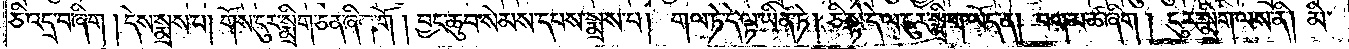ཅི་འདྲ་བ་ཞིག །དེས་སྨྲས་པ། གོས་ངུར་སྨྲིག་ཅན་ཞིག་གོ །བྱང་ཆུབ་སེམས་དཔས་སྨྲས་པ། གལ་ཏེ་དེ་ལྟ་ཡིན་ཏེ། ཅི་སྟེ་དེ་ལ་ངུར་སྨྲིག་ཡོད་ན། བག་མ་ཚ་ཞིག །ངུར་སྨྲིག་ལས་ནི། མི་
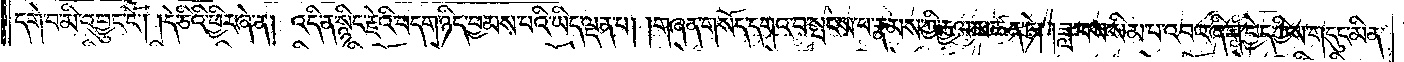དགེ་བ་མི་འབྱུང་ངོ༌། །དེ་ཅིའི་ཕྱིར་ཞེ་ན། འདི་ན་སྙིང་རྗེའི་བདག་ཉིད་བྱམས་པའི་ཡིད་ལྡན་པ། །གཞན་གསོད་དགའ་བ་སྤངས་པ་རྣམས་ཀྱི་རྒྱལ་མཚན་ཏེ། །ཟླ་བས་སིམ་པ་འབའ་ཞིག་བྱེད་ཀྱིས་གདུང་མིན་
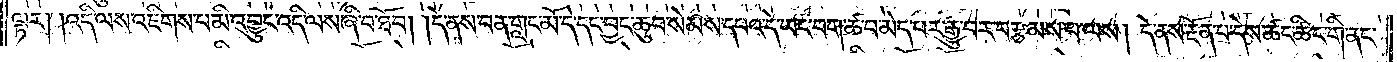ལྟར། །འདི་ལས་འཇིགས་པ་མི་འབྱུང་འདི་ལས་ཞི་བ་ཐོབ། །དེ་ནས་བན་གླང་མོ་དེ་དང་བྱང་ཆུབ་སེམས་དཔའ་དེ་ཡང་བག་ཚ་བ་མེད་པར་རྒྱུ་བར་བརྩམས་པ་ལས། དེ་ནས་རྔོན་པ་དེས་ཚང་ཚིང་གི་ནང་
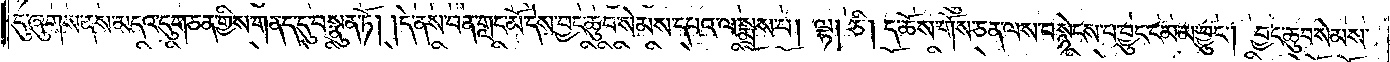དུ་ཞུགས་ནས་མདའ་དུག་ཅན་གྱིས་གནད་དུ་བསྣུན་ཏོ། །དེ་ནས་བན་གླང་མོ་དེས་བྱང་ཆུབ་སེམས་དཔའ་ལ་སྨྲས་པ། ལྷ། ཅི། ད་ཆོས་གོས་ཅན་ལས་བསྙེངས་པ་བྱུང་ངམ་མ་བྱུང༌། བྱང་ཆུབ་སེམས་
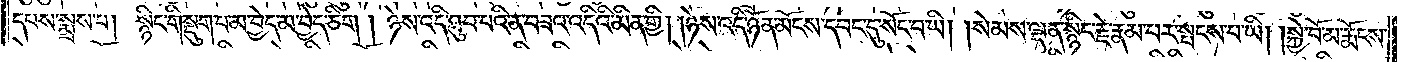དཔས་སྨྲས་པ། སྙིང་གི་སྡུག་པ་མ་བྱེད་མ་བྱེད་ཅིག། ཉེས་འདི་ཐུབ་པའི་ན་བཟའ་འདིའི་མིན་གྱི། །ཉེས་འདི་ཉོན་མོངས་དབང་དུ་སོང་བ་ཡི། །སེམས་ལྡན་སྙིང་རྗེ་རྣམ་པར་སྤངས་པ་ཡི། །སྐྱེ་བོ་མ་རྨོངས་
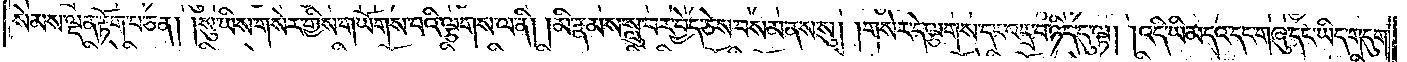སེམས་ལྡན་རྟོག་པ་ཅན། །སུ་ཡིས་གསེར་གྱིས་གཡོགས་པའི་ལྕགས་ལ་ནི། །མི་རྣམས་སླུ་བར་བྱེད་ཅེས་བསམ་ནས་སུ། །གསེར་དེ་ལྕགས་དང་འདྲ་བ་ཉིད་དུ་ལྟ། །འདི་ཡི་མདའ་དང་གཞུ་དང་ཡིད་གདུག་
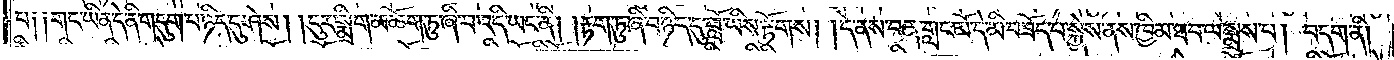པ། །གང་ཡིན་དེ་ནི་གདུག་པ་ཉིད་དུ་ཤེས། །ངུར་སྨྲིག་མཆོག་ཏུ་ཞི་བ་འདི་ཡང་ནི། །རྟག་ཏུ་ཞི་བ་ཉིད་དུ་བློ་ཡིས་རྟོགས། །དེ་ནས་བན་གླང་མོ་དེ་མི་བཟོད་པ་སྐྱེས་ནས་ཁྱིམ་ཐབ་ལ་སྨྲས་པ། བདག་ནི།
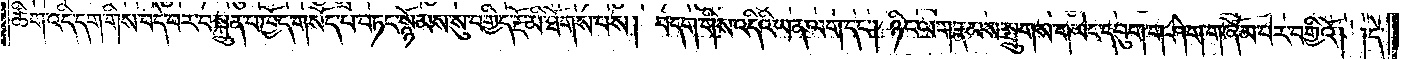ཚིག་འདི་དག་གིས་བདེ་བར་བསྐྲུན་པ་ཁྱོད་གསོད་པ་བཏང་སྙོམས་སུ་བགྱིད་རྔོ་མི་ཐོགས་པས། བདག་གིས་འདིའི་ཡན་ལག་དང༌། ཉིང་ལག་རྣམས་སྤྲུགས་གཡེང་དབུག་གཤེག་གཞོམ་པར་བགྱིའོ། །དེ་
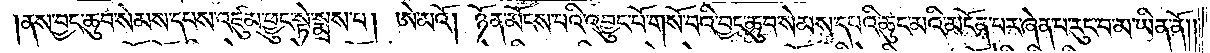ནས་བྱང་ཆུབ་སེམས་དཔས་འཛུམ་ཕྱུང་སྟེ་སྨྲས་པ། ཨེ་མའོ། ཉོན་མོངས་པའི་འབྱུང་པོ་གསོ་བའི་བྱང་ཆུབ་སེམས་དཔའི་ཆུང་མའི་མངོན་པར་ཞེན་པ་རུང་བ་མ་ཡིན་ནོ༎
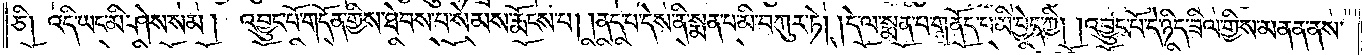ཅི། འདི་ཡང་མི་ཤེས་སམ། འབྱུང་པོ་གདོན་གྱིས་ཐེབས་པ་སེམས་རྨོངས་པ། །ནད་པ་དེས་ནི་སྨན་པ་མི་བཀུར་ཏེ། །དེ་ལ་སྨན་པ་གནོད་པ་མི་བྱེད་ཀྱི། །འབྱུང་པོ་དེ་ཉིད་ཟིལ་གྱིས་མནན་ནས་
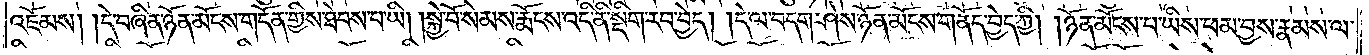འཇོམས། །དེ་བཞིན་ཉོན་མོངས་གདོན་གྱིས་ཐེབས་པ་ཡི། །སྐྱེ་བོ་སེམས་རྨོངས་འདི་ནི་སྡིག་རབ་བྱེད། །དེ་ལ་བདག་ཤེས་ཉོན་མོངས་གནོད་བྱེད་ཀྱི། །ཉོན་མོངས་པ་ཡིས་ཕམ་བྱས་རྣམས་ལ་
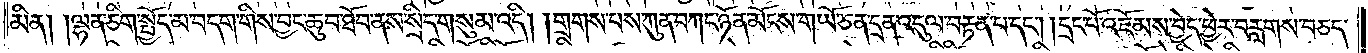མིན། །ལྷན་ཅིག་སྤྱོད་མ་བདག་གིས་བྱང་ཆུབ་ཐོབ་ནས་སྲིད་གསུམ་འདི། །གྲགས་པས་ཀུན་བཀང་ཉོན་མོངས་གཡོ་ཅན་དྲན་འདུལ་བརྟན་པ་དང༌། །དྲང་པོ་འཇོམས་བྱེད་ཁྱེར་བརླགས་བཅད་
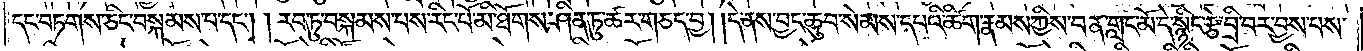དང་བཏགས་ཅིང་བསྐམས་པ་དང༌། །རབ་ཏུ་བསྐམས་པས་རིང་པོ་མི་ཐོགས་ཤིན་ཏུ་ཚར་གཅད་བྱ། །དེ་ནས་བྱང་ཆུབ་སེམས་དཔའི་ཚིག་རྣམས་ཀྱིས་བ་ན་གླང་མོ་དེ་སྙིང་རྩེ་བྲི་བར་བྱས་པས་
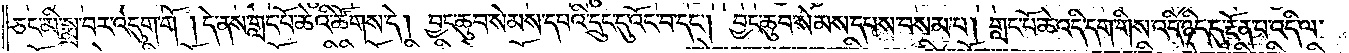ཅང་མི་སྨྲ་བར་འདུག་གོ །དེ་ནས་གླང་པོ་ཆེའི་ཚོགས་དེ། བྱང་ཆུབ་སེམས་དཔའི་དྲུང་དུ་འོང་བ་དང༌། བྱང་ཆུབ་སེམས་དཔས་བསམ་པ། གླང་པོ་ཆེ་འདི་དག་གིས་འདི་ཉིད་དུ་རྔོན་པ་འདི་ལ་
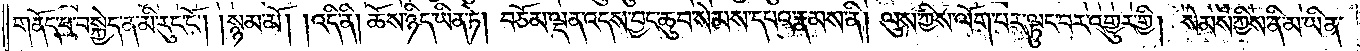གནོད་པ་བསྐྱེད་ན་མི་རུང་ངོ༌། །སྙམ་མོ། །འདི་ནི། ཆོས་ཉིད་ཡིན་ཏེ། བཅོམ་ལྡན་འདས་བྱང་ཆུབ་སེམས་དཔའ་རྣམས་ནི། ལུས་ཀྱིས་ལོག་པར་ལྟུང་བར་འགྱུར་གྱི། སེམས་ཀྱིས་ནི་མ་ཡིན་
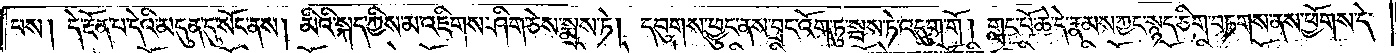པས། དེ་རྔོན་པ་དེའི་མདུན་དུ་སོང་ནས། མིའི་སྐད་ཀྱིས་མ་འཇིགས་ཤིག་ཅེས་སྨྲས་ཏེ། དབུགས་ཕྱུང་ནས་བྲང་འོག་ཏུ་སྦས་ཏེ་འདུག་གོ། གླང་པོ་ཆེ་དེ་རྣམས་ཀྱང་སྙད་ཅིག་བཏགས་ནས་ཕྱོགས་དེ་
